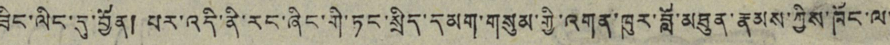ཟིང་ལིང་དུ་བྱོན། པར་འདི་ནི་རང་ཞིང་གི་ཏང་སྲིད་དམག་གསུམ་གྱི་འགན་ཁུར་བློ་མཐུན་རྣམས་ཀྱིས་ཁོང་ལ་
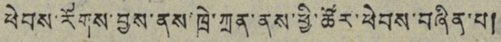ཕེབས་རོགས་བྱས་ནས་ཁྲེ་ཀྲན་ནས་ཕྱི་ཚོར་ཕེབས་བཞིན་པ།
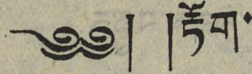༄༅། །རྟོག་
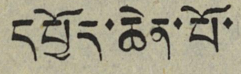དཔྱོད་ཆེན་པོ་
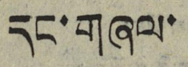དང་གཞལ་
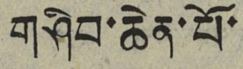གཤིབ་ཆེན་པོ་
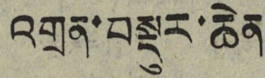འགྲན་བསྡུར་ཆེན
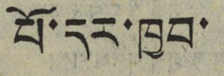པོ་དར་ཁྱབ་
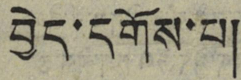བྱེད་དགོས་པ།
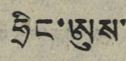ཧྲིང་ཨུས་
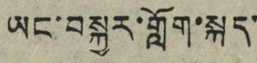ཡང་བསྐྱར་གློག་སྐད་
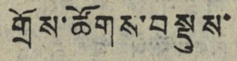གྲོས་ཚོགས་བསྡུས་
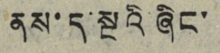ནས་ད་སྔའི་ཞིང་
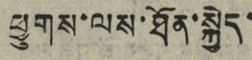ཕྱུགས་ལས་ཐོན་སྐྱེད་
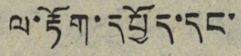ལ་རྟོག་དཔྱོད་དང་།
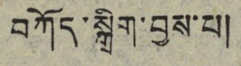བཀོད་སྒྲིག་བྱས་པ།
